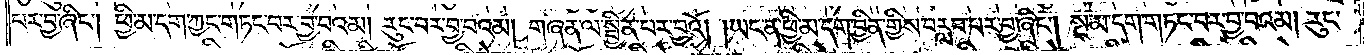པར་བྱ་ཞིང༌། ཕྱི་མ་དག་ཀྱང་གཏང་བར་བྱ་བའམ། རུང་བར་བྱ་བའམ། གཞན་ལ་སྦྱིན་པར་བྱའོ། ཡང་ན་ཕྱི་མ་དག་བྱིན་གྱིས་བརླབ་པར་བྱ་ཞིང༌། སྔ་མ་དག་གཏང་བར་བྱ་བའམ། རུང་
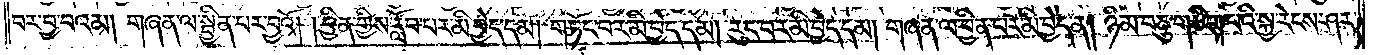བར་བྱ་བའམ། གཞན་ལ་སྦྱིན་པར་བྱའོ། །བྱིན་གྱིས་རློབ་པར་མི་བྱེད་དམ། གཏོང་བར་མི་བྱེད་དམ། རུང་བར་མི་བྱེད་དམ། གཞན་ལ་བྱིན་པར་མི་བྱེད་ན། ཉི་མ་བཅུ་གཅིག་པའི་སྐྱ་རེངས་ཤར་
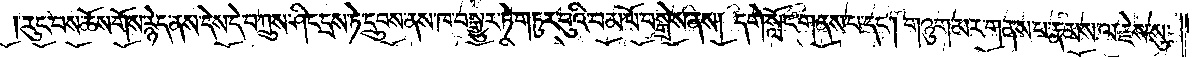རུང་བས་ཆོས་གོས་རྙེད་ནས་དེས་དེ་བཀྲུས་ཤིང་དྲས་ཏེ་དྲུབས་ནས་ཁ་བསྒྱུར་ཏེ་གཏུར་བུའི་བམ་པོ་བསྒྲེས་ནས། དགེ་སློང་གནས་པ་དང༌། གཉུག་མར་གནས་པ་རྣམས་ལ་རྗེས་སུ་
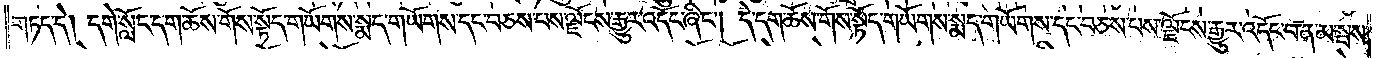གཏད་དེ། དགེ་སློང་དག་ཆོས་གོས་སྟོད་གཡོགས་སྨད་གཡོགས་དང་བཅས་པས་ལྗོངས་རྒྱུར་འདོང་ཞིང༌། དེ་དག་ཆོས་གོས་སྟོད་གཡོགས་སྨད་གཡོགས་དང་བཅས་པས་ལྗོངས་རྒྱུར་འདོང་བ་ན་མ་སྦས་
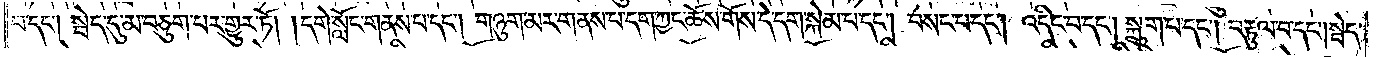པ་དང༌། སྦེད་དུ་མ་བཅུག་པར་གྱུར་ཏོ། །དགེ་སློང་གནས་པ་དང༌། གཉུག་མར་གནས་པ་དག་ཀྱང་ཆོས་གོས་དེ་དག་སྐེམ་པ་དང༌། བསང་པ་དང༌། འདིང་བ་དང༌། སྐྲུག་པ་དང༌། བརྟུལ་བ་དང༌། སྦེད་
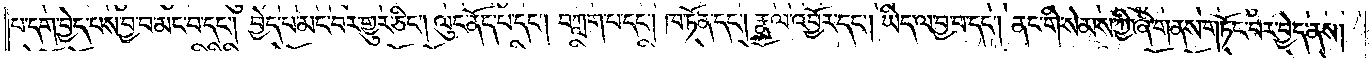པ་དག་བྱེད་པས་བྱ་བ་མང་བ་དང༌། བྱེད་པ་མང་བར་གྱུར་ཅིང༌། ལུང་ནོད་པ་དང༌། བཀླག་པ་དང༌། ཁ་ཏོན་དང༌། རྣལ་འབྱོར་དང༌། ཡིད་ལ་བྱ་བ་དང༌། ནང་གི་སེམས་ཀྱི་ཞི་གནས་གཏོང་བར་བྱེད་ནས།
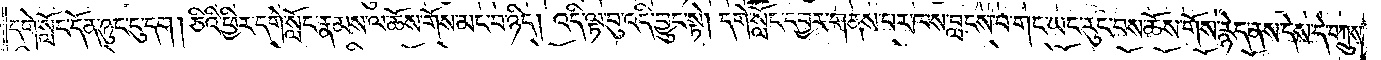དགེ་སློང་དོན་ཉུང་ངུ་དག །ཅིའི་ཕྱིར་དགེ་སློང་རྣམས་ལ་ཆོས་གོས་མང་བ་ཉིད། འདི་ལྟ་བུ་འདི་བྱུང་སྟེ། དགེ་སློང་དབྱར་གནས་པར་ཁས་བླངས་པ་གང་ཡང་རུང་བས་ཆོས་གོས་རྙེད་ནས་དེས་དེ་བཀྲུས་
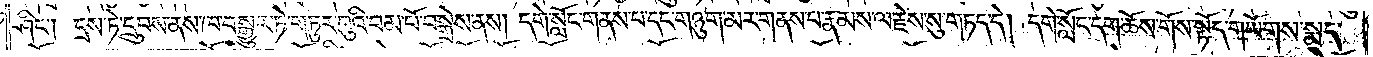ཤིང༌། དྲས་ཏེ་དྲུབས་ནས་ཁ་བསྒྱུར་ཏེ་གཏུར་བུའི་བམ་པོ་བསྒྲེས་ནས། དགེ་སློང་གནས་པ་དང་གཉུག་མར་གནས་པ་རྣམས་ལ་རྗེས་སུ་གཏད་དེ། དགེ་སློང་དག་ཆོས་གོས་སྟོད་གཡོགས་སྨད་
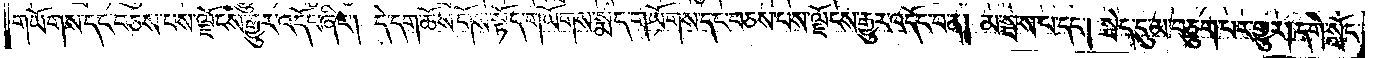གཡོགས་དང་བཅས་པས་ལྗོངས་རྒྱུར་འདོང་ཞིང༌། དེ་དག་ཆོས་གོས་སྟོད་གཡོགས་སྨད་གཡོགས་དང་བཅས་པས་ལྗོངས་རྒྱུར་འདོང་བ་ན། མ་སྦས་པ་དང༌། སྦེད་དུ་མ་བཅུག་པར་གྱུར། དགེ་སློང་
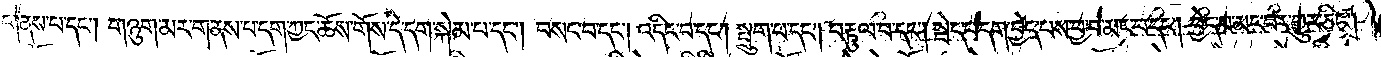གནས་པ་དང༌། གཉུག་མར་གནས་པ་དག་ཀྱང་ཆོས་གོས་དེ་དག་སྐེམ་པ་དང༌། བསང་བ་དང༌། འདིང་བ་དང༌། སྤྲུག་པ་དང༌། བརྟུལ་བ་དང༌། སྦེད་བ་དག་བྱེད་པས་བྱ་བ་མང་བ་དང༌། བྱེད་པ་མང་བར་གྱུར་ཅིང༌།
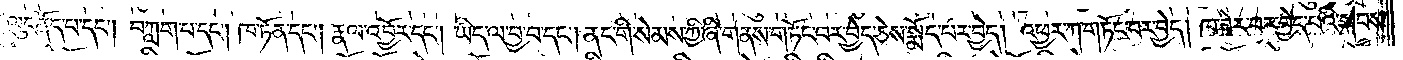ལུང་ནོད་པ་དང༌། བཀླག་པ་དང༌། ཁ་ཏོན་དང༌། རྣལ་འབྱོར་དང༌། ཡིད་ལ་བྱ་བ་དང༌། ནང་གི་སེམས་ཀྱི་ཞི་གནས་གཏོང་བར་བྱེད་ཅེས་སྨོད་པར་བྱེད། འཕྱར་ཀ་གཏོང་བར་བྱེད། ཁ་ཟེར་བར་བྱེད་པའི་སྐབས་
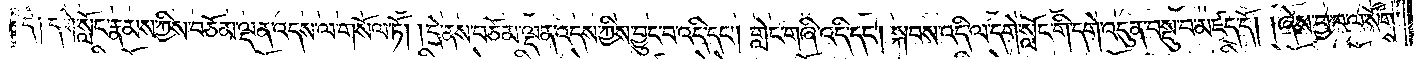དེ༏ དགེ་སློང་རྣམས་ཀྱིས་བཅོམ་ལྡན་འདས་ལ་གསོལ་ཏོ། །དེ་ནས་བཅོམ་ལྡན་འདས་ཀྱིས་བྱུང་བ་འདི་དང༌། གླེང་གཞི་འདི་དང༌། སྐབས་འདི་ལ་དགེ་སློང་གི་དགེ་འདུན་བསྡུ་བ་མཛད་དོ། །ཞེས་བྱ་བ་ལ་སོགས་
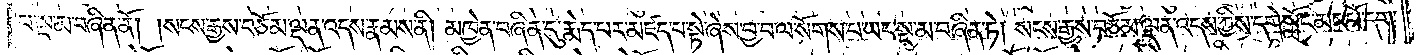པ་སྔ་མ་བཞིན་ནོ། །སངས་རྒྱས་བཅོམ་ལྡན་འདས་རྣམས་ནི། མཁྱེན་བཞིན་དུ་རྨེད་པར་མཛད་པ་སྟེ་ཞེས་བྱ་བ་ལ་སོགས་པ་ཡང་སྔ་མ་བཞིན་ཏེ། སངས་རྒྱས་བཅོམ་ལྡན་འདས་ཀྱིས་དགེ་སློང་མང་པོ་དག་
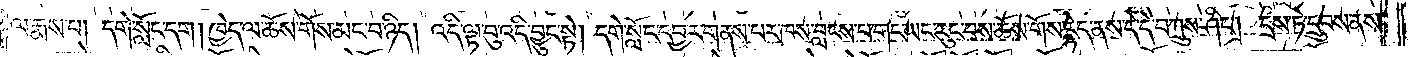ལ་རྨས་པ། དགེ་སློང་དག། ཁྱེད་ལ་ཆོས་གོས་མང་བ་ཉིད། འདི་ལྟ་བུ་འདི་བྱུང་སྟེ། དགེ་སློང་དབྱར་གནས་པར་ཁས་བླངས་པ་གང་ཡང་རུང་བས་ཆོས་གོས་རྙེད་ནས་དེ་དེ་བཀྲུས་ཤིང༌། དྲས་ཏེ་དྲུབས་ནས་
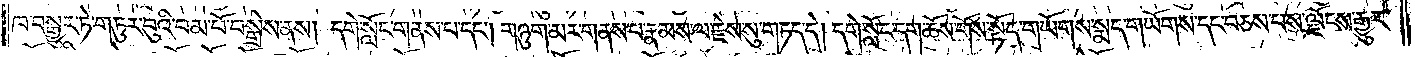ཁ་བསྒྱུར་ཏེ་གཏུར་བུའི་བམ་པོ་བསྒྲེས་ནས། དགེ་སློང་གནས་པ་དང༌། གཉུག་མར་གནས་པ་རྣམས་ལ་རྗེས་སུ་གཏད་དེ། དགེ་སློང་དག་ཆོས་གོས་སྟོད་གཡོགས་སྨད་གཡོགས་དང་བཅས་པས་ལྗོངས་རྒྱུར་
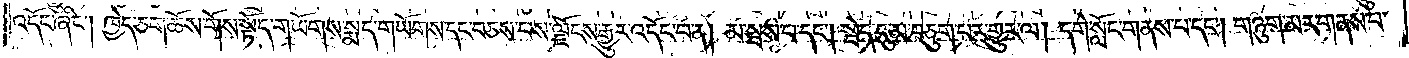འདོང་ཞིང༌། ཁྱེད་ཅག་ཆོས་གོས་སྟོད་གཡོགས་སྨད་གཡོགས་དང་བཅས་པས་ལྗོངས་རྒྱུར་འདོང་བ་ན། མ་སྦས་པ་དང༌། སྦེད་དུ་མ་བཅུག་པར་གྱུར་ལ། དགེ་སློང་གནས་པ་དང༌། གཉུག་མར་གནས་པ་
